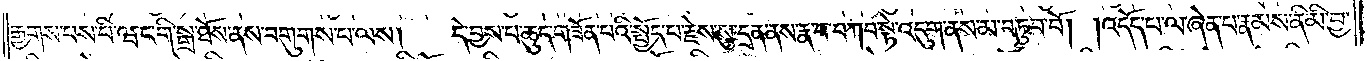རྒྱགས་པས་པི་ཝང་གི་སྒྲ་ཐོས་ནས་བགུགས་པ་ལས།<gap>དེ་བྱས་པ་ཆུད་གཟོན་པའི་སྤྱོད་པ་རྗེས་སུ་དྲན་ནས་རྣ་བ་བཀབ་སྟེ་འདུག་ནས་མ་བཏུབ་བོ། །འདོད་པ་ལ་ཞེན་པ་རྣམས་ནི་མི་བྱ་
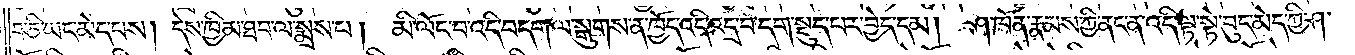བ་ཅི་ཡང་མེད་པས། དེས་ཁྱིམ་ཐབ་ལ་སྨྲས་པ། མི་ལོང་བ་འདི་བདག་ལ་སྒུགས་ན་ཁྱོད་འདི་འདྲ་བ་དག་སྡུད་པར་བྱེད་དམ། ཤ་འཁོན་རྣམས་ཀྱི་ནང་ན་འདི་ལྟ་སྟེ་བུད་མེད་ཀྱི་ཤ་
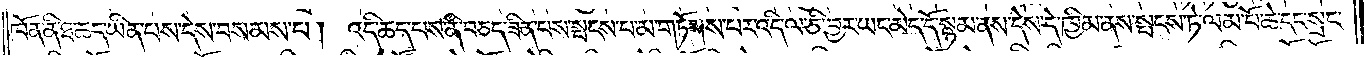འཁོན་ནི་ཐ་ཆད་ཡིན་པས་དེས་བསམས་པ། འདི་ཆད་པས་ནི་བཅད་ཟིན་པས་སྤང་པ་མ་གཏོགས་པར་འདི་ལ་ཅི་བྱར་ཡང་མེད་དོ་སྙམ་ནས་དེས་དེ་ཁྱིམ་ནས་སྤངས་ཏེ་ལམ་པོ་ཆ་དང་སྲང་
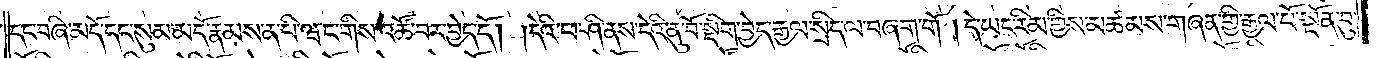དང་བཞི་མདོ་དང་སུམ་མདོ་རྣམས་ན་པི་ཝང་གིས་འཚོ་བར་བྱེད་དོ། །དེའི་ཕ་ཤི་ནས་དེའི་ནུ་བོ་སྡིག་བྱེད་རྒྱལ་སྲིད་ལ་བཞག་གོ །དེ་ཡང་རིམ་གྱིས་མཚམས་གཞན་གྱི་རྒྱལ་པོ་སྔོན་བུ་
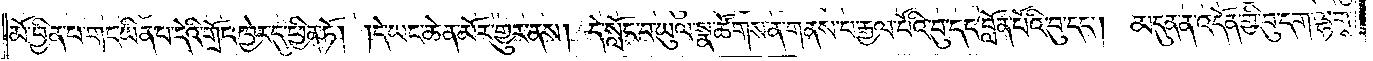མོ་བྱིན་པ་གང་ཡིན་པ་དེའི་གྲོང་ཁྱེར་དུ་ཕྱིན་ཏོ། །དེ་ཡང་ཆེན་མོར་གྱུར་ནས། དེ་སློང་བ་ཡུལ་སྣ་ཚོགས་ན་གནས་པ་རྒྱལ་པོའི་བུ་དང་བློན་པོའི་བུ་དང༌། མདུན་ན་འདོན་གྱི་བུ་དག་ལྷགས་
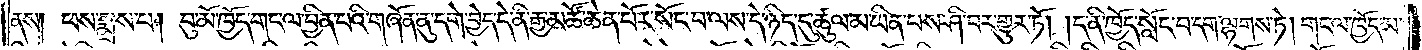ནས། ཕས་སྨྲས་པ། བུ་མོ་ཁྱོད་གང་ལ་བྱིན་པའི་གཞོན་ནུ་དགེ་བྱེད་དེ་ནི་རྒྱ་མཚོ་ཆེན་པོར་སོང་བ་ལས་དེ་ཉིད་དུ་ཚུལ་མ་ཡིན་པས་ཤི་བར་གྱུར་ཏོ། །ད་ནི་ཁྱོད་སློང་བ་དག་ལྷགས་ཏེ། གང་ལ་ཁྱོད་མ་
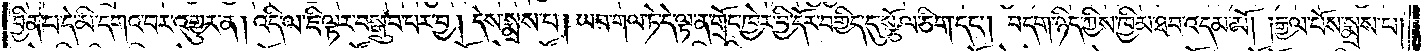བྱིན་པ་དེ་མི་དགའ་བར་འགྱུར་ན། འདི་ལ་ཇི་ལྟར་བསྒྲུབ་པར་བྱ། དེས་སྨྲས་པ། ཡབ་གལ་ཏེ་དེ་ལྟ་ན་གྲོང་ཁྱེར་བྱི་དོར་བགྱིད་དུ་སྩོལ་ཅིག་དང༌། བདག་ཉིད་ཀྱིས་ཁྱིམ་ཐབ་འདམ་མོ། །རྒྱལ་པོས་སྨྲས་པ།
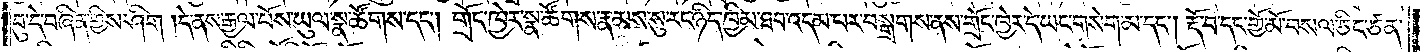བུ་དེ་བཞིན་གྱིས་ཤིག །དེ་ནས་རྒྱལ་པོས་ཡུལ་སྣ་ཚོགས་དང༌། གྲོང་ཁྱེར་སྣ་ཚོགས་རྣམས་སུ་རང་ཉིད་ཁྱིམ་ཐབ་འདམ་པར་བསྒྲགས་ནས་གྲོང་ཁྱེར་དེ་ཡང་གསེག་མ་དང༌། རྡོ་བ་དང་གྱོ་མོ་བསལ་ཅིང་ཙན་
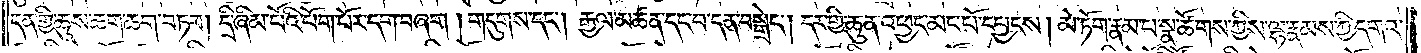དན་གྱི་ཆུས་ཆག་ཆག་བཏབ། དྲི་ཞིམ་པའི་པོག་པོར་དག་བཞག །གདུགས་དང༌། རྒྱལ་མཚན་དང་བ་དན་བསྒྲེང༌། དར་གྱི་ཆུན་འཕྱང་མང་པོ་དཔྱངས། མེ་ཏོག་རྣམ་པ་སྣ་ཚོགས་ཀྱིས་ལྷ་རྣམས་ཀྱི་དགའ་
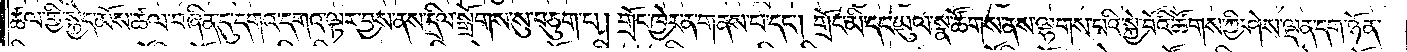ཚལ་གྱི་སྐྱེད་མོས་ཚལ་བཞིན་དུ་དགའ་དགའ་ལྟར་བྱས་ནས་དྲིལ་སྒྲོགས་སུ་བཅུག་པ། གྲོང་ཁྱེར་ན་གནས་པ་དང༌། གྲོང་མི་དང་ཡུལ་སྣ་ཚོགས་ནས་ལྷགས་པའི་སྐྱེ་བོའི་ཚོགས་ཀྱི་ཤེས་ལྡན་དག་ཉོན་
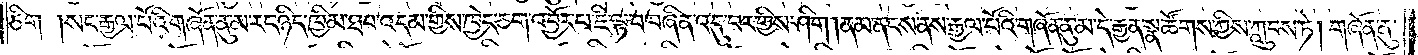ཅིག །སངས་རྒྱལ་པོའི་གཞོན་ནུ་མ་རང་ཉིད་ཁྱིམ་ཐབ་འདམ་གྱིས་ཁྱེད་ཅག་འབྱོར་པ་ཇི་ལྟ་བ་བཞིན་འདུ་བར་གྱིས་ཤིག །ནམ་ནངས་ནས་རྒྱལ་པོའི་གཞོན་ནུ་མ་དེ་རྒྱན་སྣ་ཚོགས་ཀྱིས་ཀླུབས་ཏེ། གཞོན་ནུ་
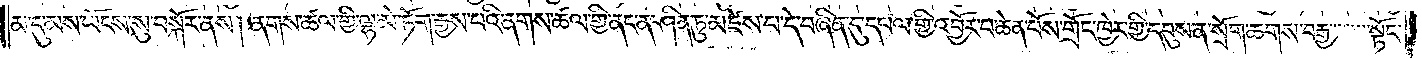མ་དུ་མས་ཡོངས་སུ་བསྐོར་ནས། ནགས་ཚལ་གྱི་ལྷ་མེ་ཏོག་རྒྱས་པའི་ནགས་ཚལ་གྱི་ནང་ན་ཤིན་ཏུ་མཛེས་པ་དེ་བཞིན་དུ་དཔལ་གྱི་འབྱོར་པ་ཆེན་པོས་གྲོང་ཁྱེར་གྱི་དབུས་ན་སྲེག་ཆགས་བརྒྱ་སྟོང་
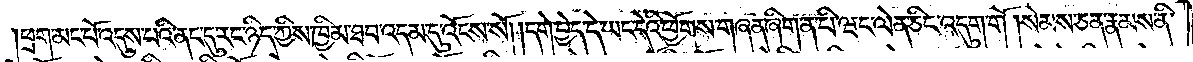ཕྲག་མང་པོ་འདུས་པའི་ནང་དུ་རང་ཉིད་ཀྱིས་ཁྱིམ་ཐབ་འདམ་དུ་འོངས་སོ། །དགེ་བྱེད་དེ་ཡང་དེའི་ཕྱོགས་གཞན་ཞིག་ན་པི་ཝང་ལེན་ཅིང་འདུག་གོ །སེམས་ཅན་རྣམས་ནི་
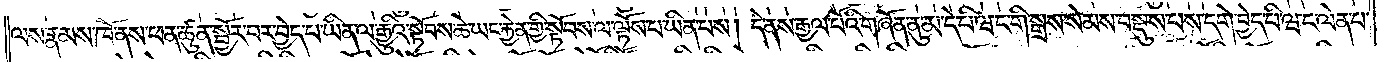ལས་རྣམས་ཁོ་ནས་ཕན་ཚུན་སྦྱོར་བར་བྱེད་པ་ཡིན་ལ་རྒྱུའི་སྟོབས་ཆེ་ཡང་རྐྱེན་གྱི་སྟོབས་ལ་ལྟོས་པ་ཡིན་པས། དེ་ནས་རྒྱལ་པོའི་གཞོན་ནུ་མ་དེ་པི་ཝང་གི་སྒྲས་སེམས་བསྡུས་པས་དགེ་བྱེད་པི་ཝང་ལེན་པ་
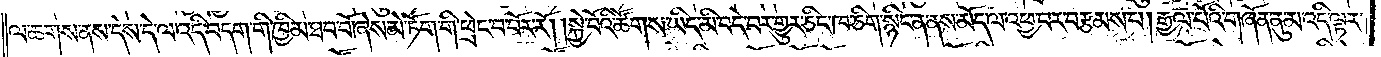ལ་ཆགས་ནས་དེས་དེ་ལ་འདི་བདག་གི་ཁྱིམ་ཐབ་བོ་ཞེས་མེ་ཏོག་གི་ཕྲེང་བ་བོར་རོ། །སྐྱེ་བོའི་ཚོགས་ཡིད་མི་བདེ་བར་གྱུར་ཅིང་ཁ་ཅིག་སྙིང་ན་ནས་མོད་ལ་འཕྱ་བར་བརྩམས་པ། རྒྱལ་པོའི་གཞོན་ནུ་མ་འདི་ལྟར་
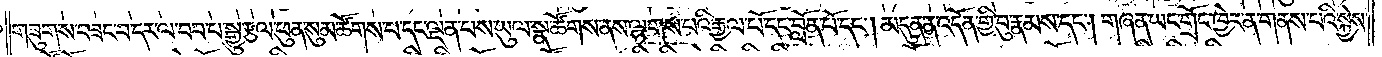གཟུགས་བཟང་བ་དར་ལ་བབ་པ་སྒྱུ་རྩལ་ཕུན་སུམ་ཚོགས་པ་དང་ལྡན་པས་ཡུལ་སྣ་ཚོགས་ནས་ལྷག་པའི་རྒྱལ་པོ་དང་བློན་པོ་དང༌། མདུན་ན་འདོན་གྱི་བུ་རྣམས་དང༌། གཞན་ཡང་གྲོང་ཁྱེར་ན་གནས་པའི་སྐྱེས་
